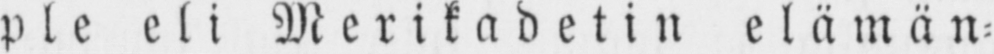ple eli Merikadetin eläwän-
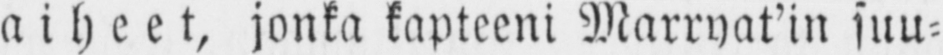waiheet, jonka kapteeni Marryat'in suu-
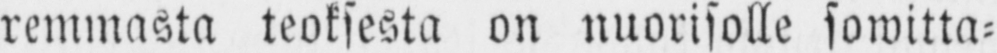remmasta teoksesta on nuorisolle sowitta-
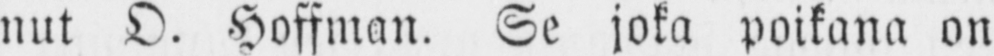nut O. Hoffman. Se joka poikana on
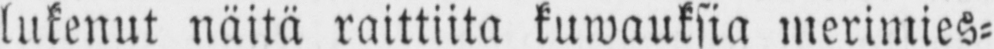lukenut näitä raittiita kuwauksia merimies-
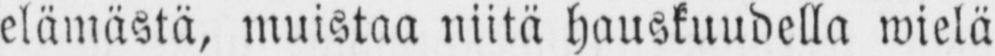elämästä, muistaa niitä hauskuudella wielä
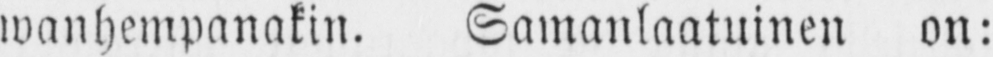wanhempanakin. Samanlaatuinen on:
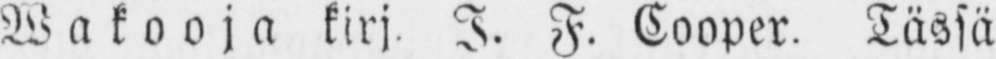Wakooja kirj. I. F. Cooper. Tässä
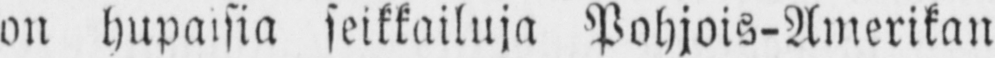on hupaisia seikkailuja Pohjois-Amerikan
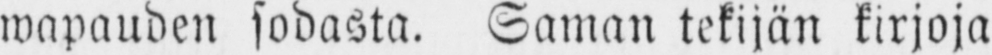wapauden sodasta. Saman tekijän kirjoja
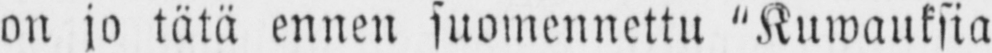on jo tätä ennen suomennettu "Kuwauksia
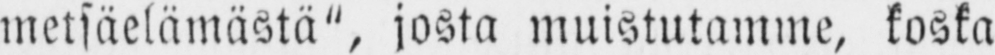metsäelämästä", josta muistutamme, koska
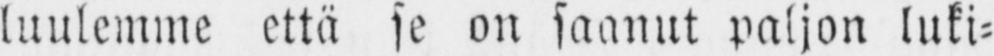luulemme että se on saanut paljon luki-
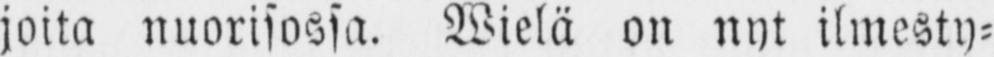joita nuorisossa. Wielä on nyt ilmesty-
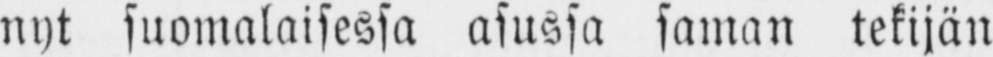nyt suomalaisessa asussa saman tekijän
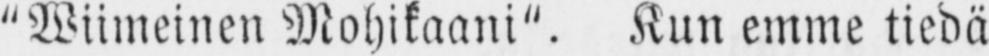"Wiimeinen Mohikaani". Kun emme tiedä
